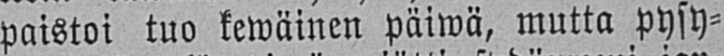paistoi tuo kewäinen päiwä, mutta pysy-
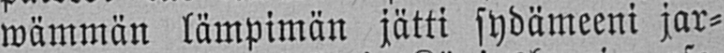wämmän lämpimän jätti sydämeeni jar-
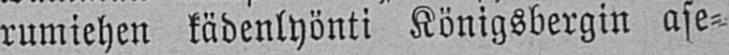rumiehen kädenlyönti Königsbergin ase-
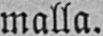malla.
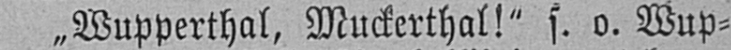˶Wupperthal, Muckerthal!" s. o. Wup-
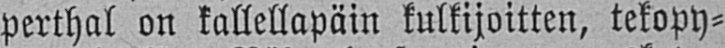perthal on kallellapäin kulkijoitten, tekopy-
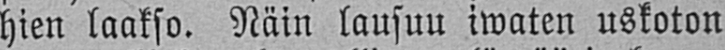hien laakso. Näin lausuu iwaten uskoton
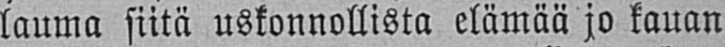lauma siitä uskonnollista elämää jo kauan
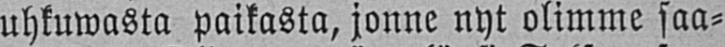uhkuwasta paikasta, jonne nyt olimme saa-
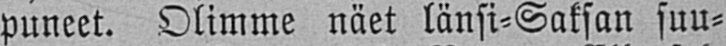puneet. Olimme näet länsi-Saksan suu-
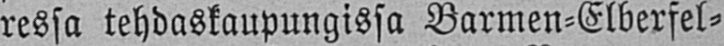ressa tehdaskaupungissa Barmen-Elberfel-
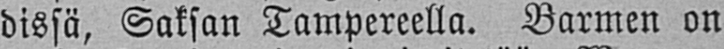dissä, Saksan Tampereella. Barmen on
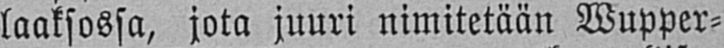laaksossa, jota juuri nimitetään Wupper-
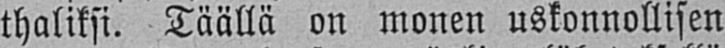thaliksi. Täällä on monen uskonnollisen
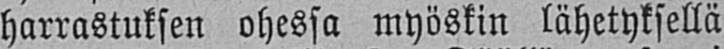harrastuksen ohessa myöskin lähetyksellä
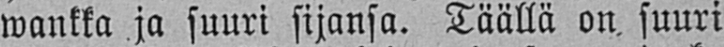mankka ja suuri sijansa. Täällä on suuri
